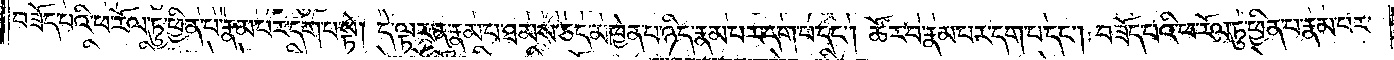བཟོད་པའི་ཕ་རོལ་ཏུ་ཕྱིན་པ་རྣམ་པར་དག་པ་སྟེ། དེ་ལྟར་ན་རྣམ་པ་ཐམས་ཅད་མཁྱེན་པ་ཉིད་རྣམ་པར་དག་པ་དང༌། ཚོར་བ་རྣམ་པར་དག་པ་དང༌། བཟོད་པའི་ཕ་རོལ་ཏུ་ཕྱིན་པ་རྣམ་པར་
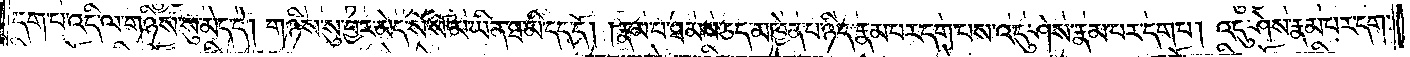དག་པ་འདི་ལ་གཉིས་སུ་མེད་དེ། གཉིས་སུ་བྱར་མེད་སོ་སོ་མ་ཡིན་ཐ་མི་དད་དོ། །རྣམ་པ་ཐམས་ཅད་མཁྱེན་པ་ཉིད་རྣམ་པར་དག་པས་འདུ་ཤེས་རྣམ་པར་དག་པ། འདུ་ཤེས་རྣམ་པར་དག་
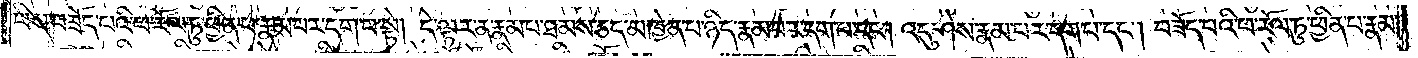པས་བཟོད་པའི་ཕ་རོལ་ཏུ་ཕྱིན་པ་རྣམ་པར་དག་པ་སྟེ། དེ་ལྟར་ན་རྣམ་པ་ཐམས་ཅད་མཁྱེན་པ་ཉིད་རྣམ་པར་དག་པ་དང༌། འདུ་ཤེས་རྣམ་པར་དག་པ་དང༌། བཟོད་པའི་ཕ་རོལ་ཏུ་ཕྱིན་པ་རྣམ་
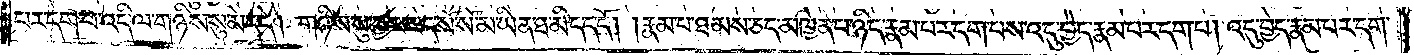པར་དག་པ་འདི་ལ་གཉིས་སུ་མེད་དེ། གཉིས་མེད་དེ་གཉིས་སུ་བྱར་མེད་སོ་སོ་མ་ཡིན་ཐ་མི་དད་དོ། །རྣམ་པ་ཐམས་ཅད་མཁྱེན་པ་ཉིད་རྣམ་པར་དག་པས་འདུ་བྱེད་རྣམ་པར་དག་པ། འདུ་བྱེད་རྣམ་པར་དག་
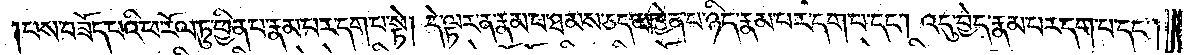པས་བཟོད་པའི་ཕ་རོལ་ཏུ་ཕྱིན་པ་རྣམ་པར་དག་པ་སྟེ། དེ་ལྟར་ན་རྣམ་པ་ཐམས་ཅད་མཁྱེན་པ་ཉིད་རྣམ་པར་དག་པ་དང༌། འདུ་བྱེད་རྣམ་པར་དག་པ་དང༌།
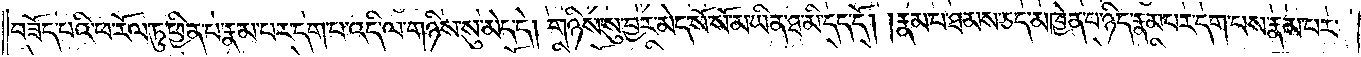བཟོད་པའི་ཕ་རོལ་ཏུ་ཕྱིན་པ་རྣམ་པར་དག་པ་འདི་ལ་གཉིས་སུ་མེད་དེ། གཉིས་སུ་བྱར་མེད་སོ་སོ་མ་ཡིན་ཐ་མི་དད་དོ། །རྣམ་པ་ཐམས་ཅད་མཁྱེན་པ་ཉིད་རྣམ་པར་དག་པས་རྣམ་པར་
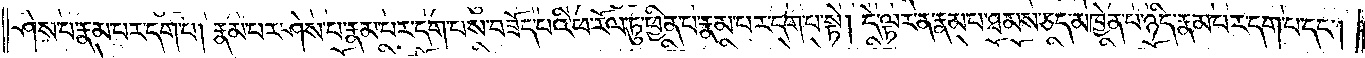ཤེས་པ་རྣམ་པར་དག་པ། རྣམ་པར་ཤེས་པ་རྣམ་པར་དག་པས་བཟོད་པའི་ཕ་རོལ་ཏུ་ཕྱིན་པ་རྣམ་པར་དག་པ་སྟེ། དེ་ལྟར་ན་རྣམ་པ་ཐམས་ཅད་མཁྱེན་པ་ཉིད་རྣམ་པར་དག་པ་དང༌།
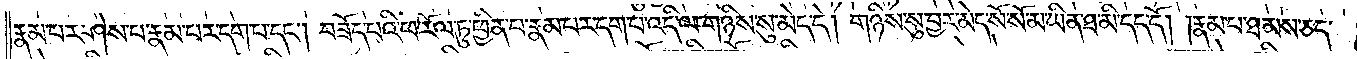རྣམ་པར་ཤེས་པ་རྣམ་པར་དག་པ་དང༌། བཟོད་པའི་ཕ་རོལ་ཏུ་ཕྱིན་པ་རྣམ་པར་དག་པ་འདི་ལ་གཉིས་སུ་མེད་དེ། གཉིས་སུ་བྱར་མེད་སོ་སོ་མ་ཡིན་ཐ་མི་དད་དོ། །རྣམ་པ་ཐམས་ཅད་
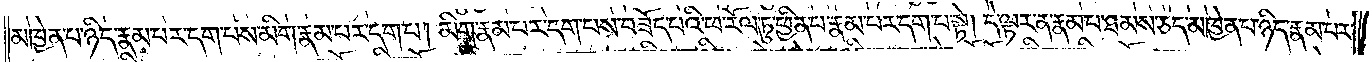མཁྱེན་པ་ཉིད་རྣམ་པར་དག་པས་མིག་རྣམ་པར་དག་པ། མིག་རྣམ་པར་དག་པས་བཟོད་པའི་ཕ་རོལ་ཏུ་ཕྱིན་པ་རྣམ་པར་དག་པ་སྟེ། དེ་ལྟར་ན་རྣམ་པ་ཐམས་ཅད་མཁྱེན་པ་ཉིད་རྣམ་པར་
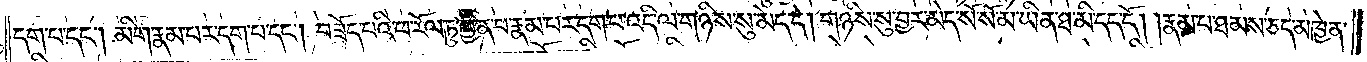དག་པ་དང༌། མིག་རྣམ་པར་དག་པ་དང༌། བཟོད་པའི་ཕ་རོལ་ཏུ་ཕྱིན་པ་རྣམ་པར་དག་པ་འདི་ལ་གཉིས་སུ་མེད་དེ། གཉིས་སུ་བྱར་མེད་སོ་སོ་མ་ཡིན་ཐ་མི་དད་དོ། །རྣམ་པ་ཐམས་ཅད་མཁྱེན་
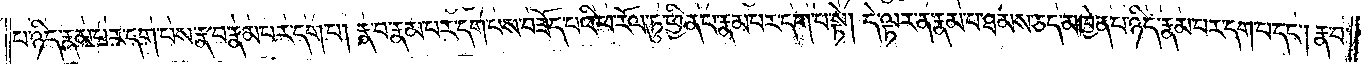པ་ཉིད་རྣམ་པར་དག་པས་རྣ་བ་རྣམ་པར་དག་པ། རྣ་བ་རྣམ་པར་དག་པས་བཟོད་པའི་ཕ་རོལ་ཏུ་ཕྱིན་པ་རྣམ་པར་དག་པ་སྟེ། དེ་ལྟར་ན་རྣམ་པ་ཐམས་ཅད་མཁྱེན་པ་ཉིད་རྣམ་པར་དག་པ་དང༌། རྣ་བ་
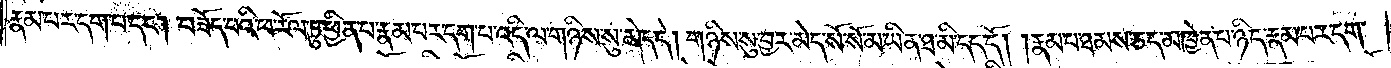རྣམ་པར་དག་པ་དང༌། བཟོད་པའི་ཕ་རོལ་ཏུ་ཕྱིན་པ་རྣམ་པར་དག་པ་འདི་ལ་གཉིས་སུ་མེད་དེ། གཉིས་སུ་བྱར་མེད་སོ་སོ་མ་ཡིན་ཐ་མི་དད་དོ། །རྣམ་པ་ཐམས་ཅད་མཁྱེན་པ་ཉིད་རྣམ་པར་དག་
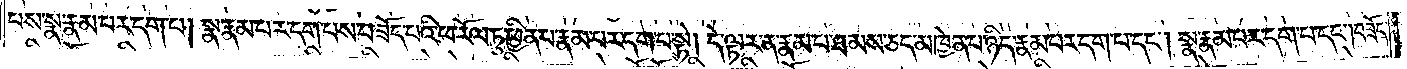པས་སྣ་རྣམ་པར་དག་པ། སྣ་རྣམ་པར་དག་པས་བཟོད་པའི་ཕ་རོལ་ཏུ་ཕྱིན་པ་རྣམ་པར་དག་པ་སྟེ། དེ་ལྟར་ན་རྣམ་པ་ཐམས་ཅད་མཁྱེན་པ་ཉིད་རྣམ་པར་དག་པ་དང༌། སྣ་རྣམ་པར་དག་པ་དང༌། བཟོད་
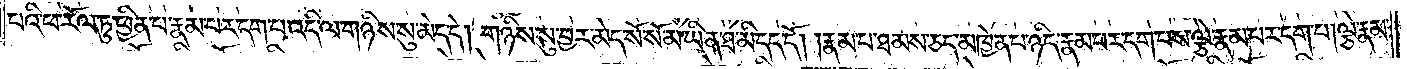པའི་ཕ་རོལ་ཏུ་ཕྱིན་པ་རྣམ་པར་དག་པ་འདི་ལ་གཉིས་སུ་མེད་དེ། གཉིས་སུ་བྱར་མེད་སོ་སོ་མ་ཡིན་ཐ་མི་དད་དོ། །རྣམ་པ་ཐམས་ཅད་མཁྱེན་པ་ཉིད་རྣམ་པར་དག་པས་ལྕེ་རྣམ་པར་དག་པ། ལྕེ་རྣམ་
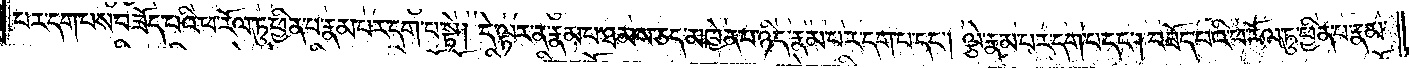པར་དག་པས་བཟོད་པའི་ཕ་རོལ་ཏུ་ཕྱིན་པ་རྣམ་པར་དག་པ་སྟེ། དེ་ལྟར་ན་རྣམ་པ་ཐམས་ཅད་མཁྱེན་པ་ཉིད་རྣམ་པར་དག་པ་དང༌། ལྕེ་རྣམ་པར་དག་པ་དང༌། བཟོད་པའི་ཕ་རོལ་ཏུ་ཕྱིན་པ་རྣམ་
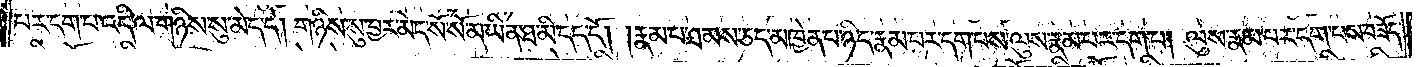པར་དག་པ་འདི་ལ་གཉིས་སུ་མེད་དེ། གཉིས་སུ་བྱར་མེད་སོ་སོ་མ་ཡིན་ཐ་མི་དད་དོ། །རྣམ་པ་ཐམས་ཅད་མཁྱེན་པ་ཉིད་རྣམ་པར་དག་པས་ལུས་རྣམ་པར་དག་པ། ལུས་རྣམ་པར་དག་པས་བཟོད་
